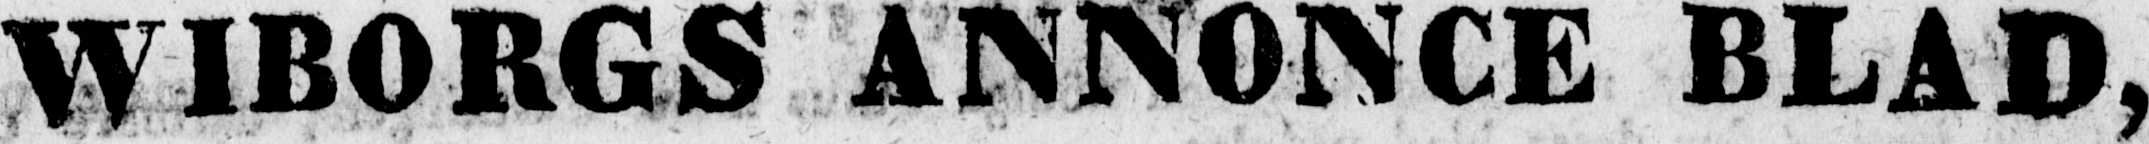WIBORGS ANNONCE BLAD,
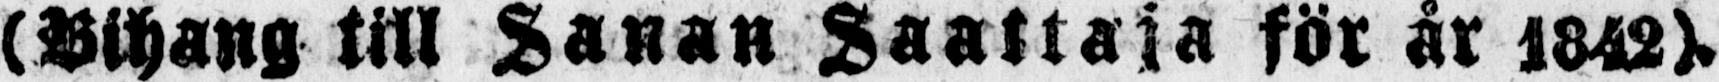(Bihang till Sanan Saattaja för år 1842).
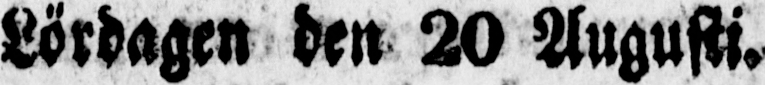Lördagen den 20 Augusti.
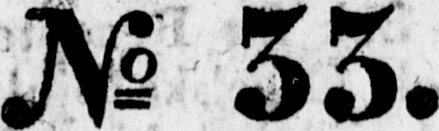N:o 33.
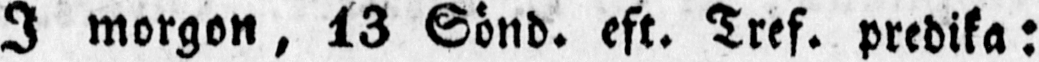I morgon, 13 Sönd. eft. Tref. predika:
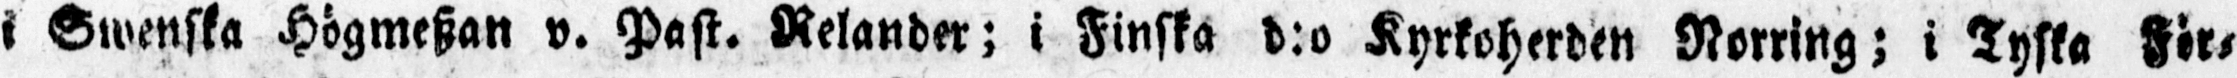i Swenska Högmeszan v. Past. Relander; i Finska d:o Kyrkoherden Norring; i Tyska För-
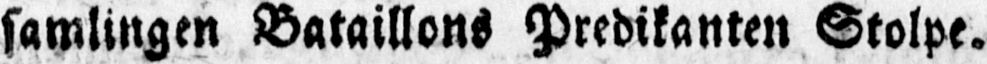samlingen Bataillons Predikanten Stolpe.
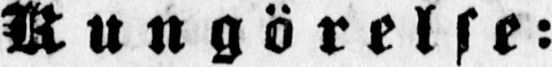Kungörelse:
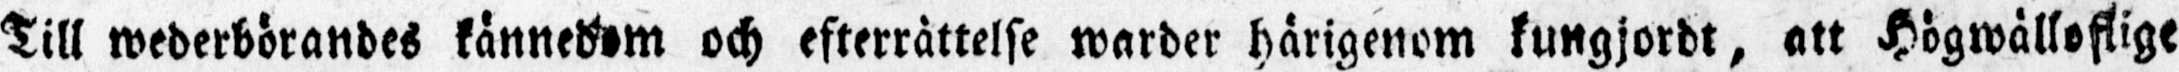Till wederbörandes kännedom och efterrättelse warder härigenom kungjordt, att Högwälloflige
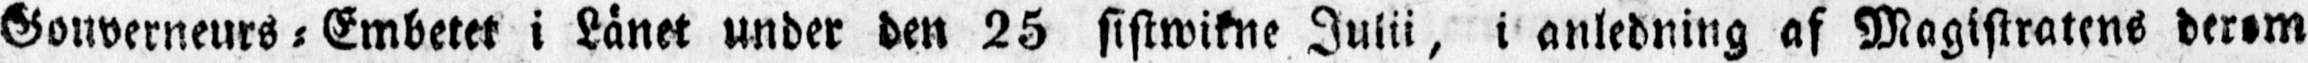Gouverneurs - Embetet i Länet under den 25 sistwikne Julii, i anledning af Magistratens derom
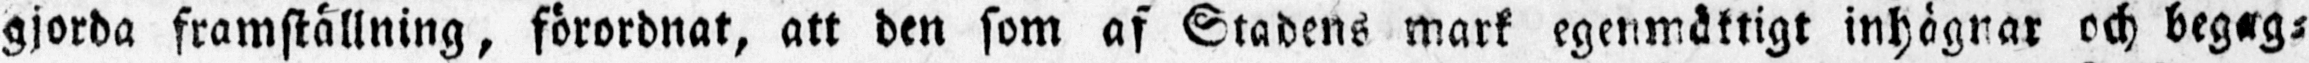gjorda framställning, förordnat, att den som af Stadens mark egenmäktigt inhägnar och begag-
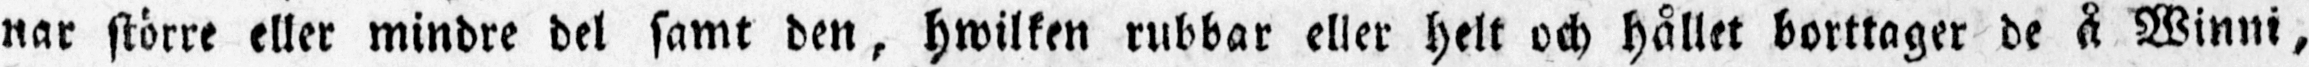nar större eller mindre del samt den, hwilken rubbar eller helt och hållet borttager de å Winni,
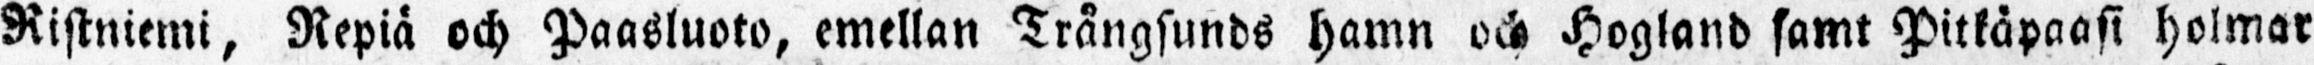Ristniemi, Nepiä och Paasluoto, emellan Trångsunds hamn och Hogland samt Pitkäpaasi holmar
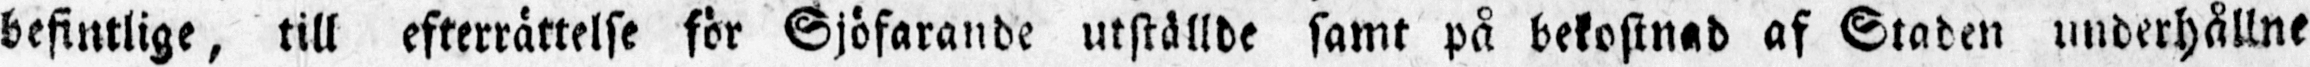befintlige, till efterrättelse för Sjöfarande utställde samt på bekostnad af Staden underhållne
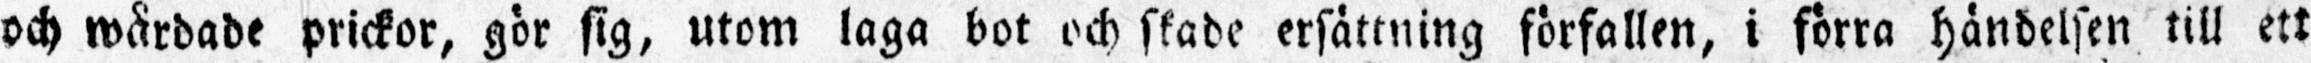och wårdade prickor, gör sig, utom laga bot och skade ersättning förfallen, i förra händelsen till ett
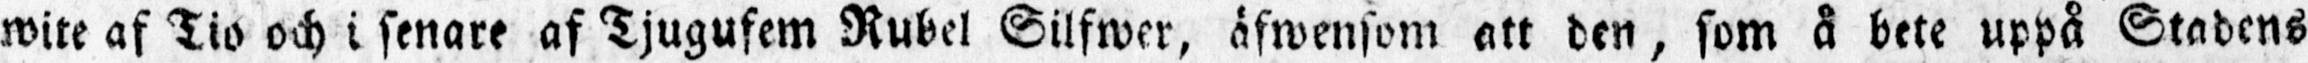wite af Tio och i senare af Tjugufem Rubel Silfwer, äfwensom att den, som å bete uppå Stadens
